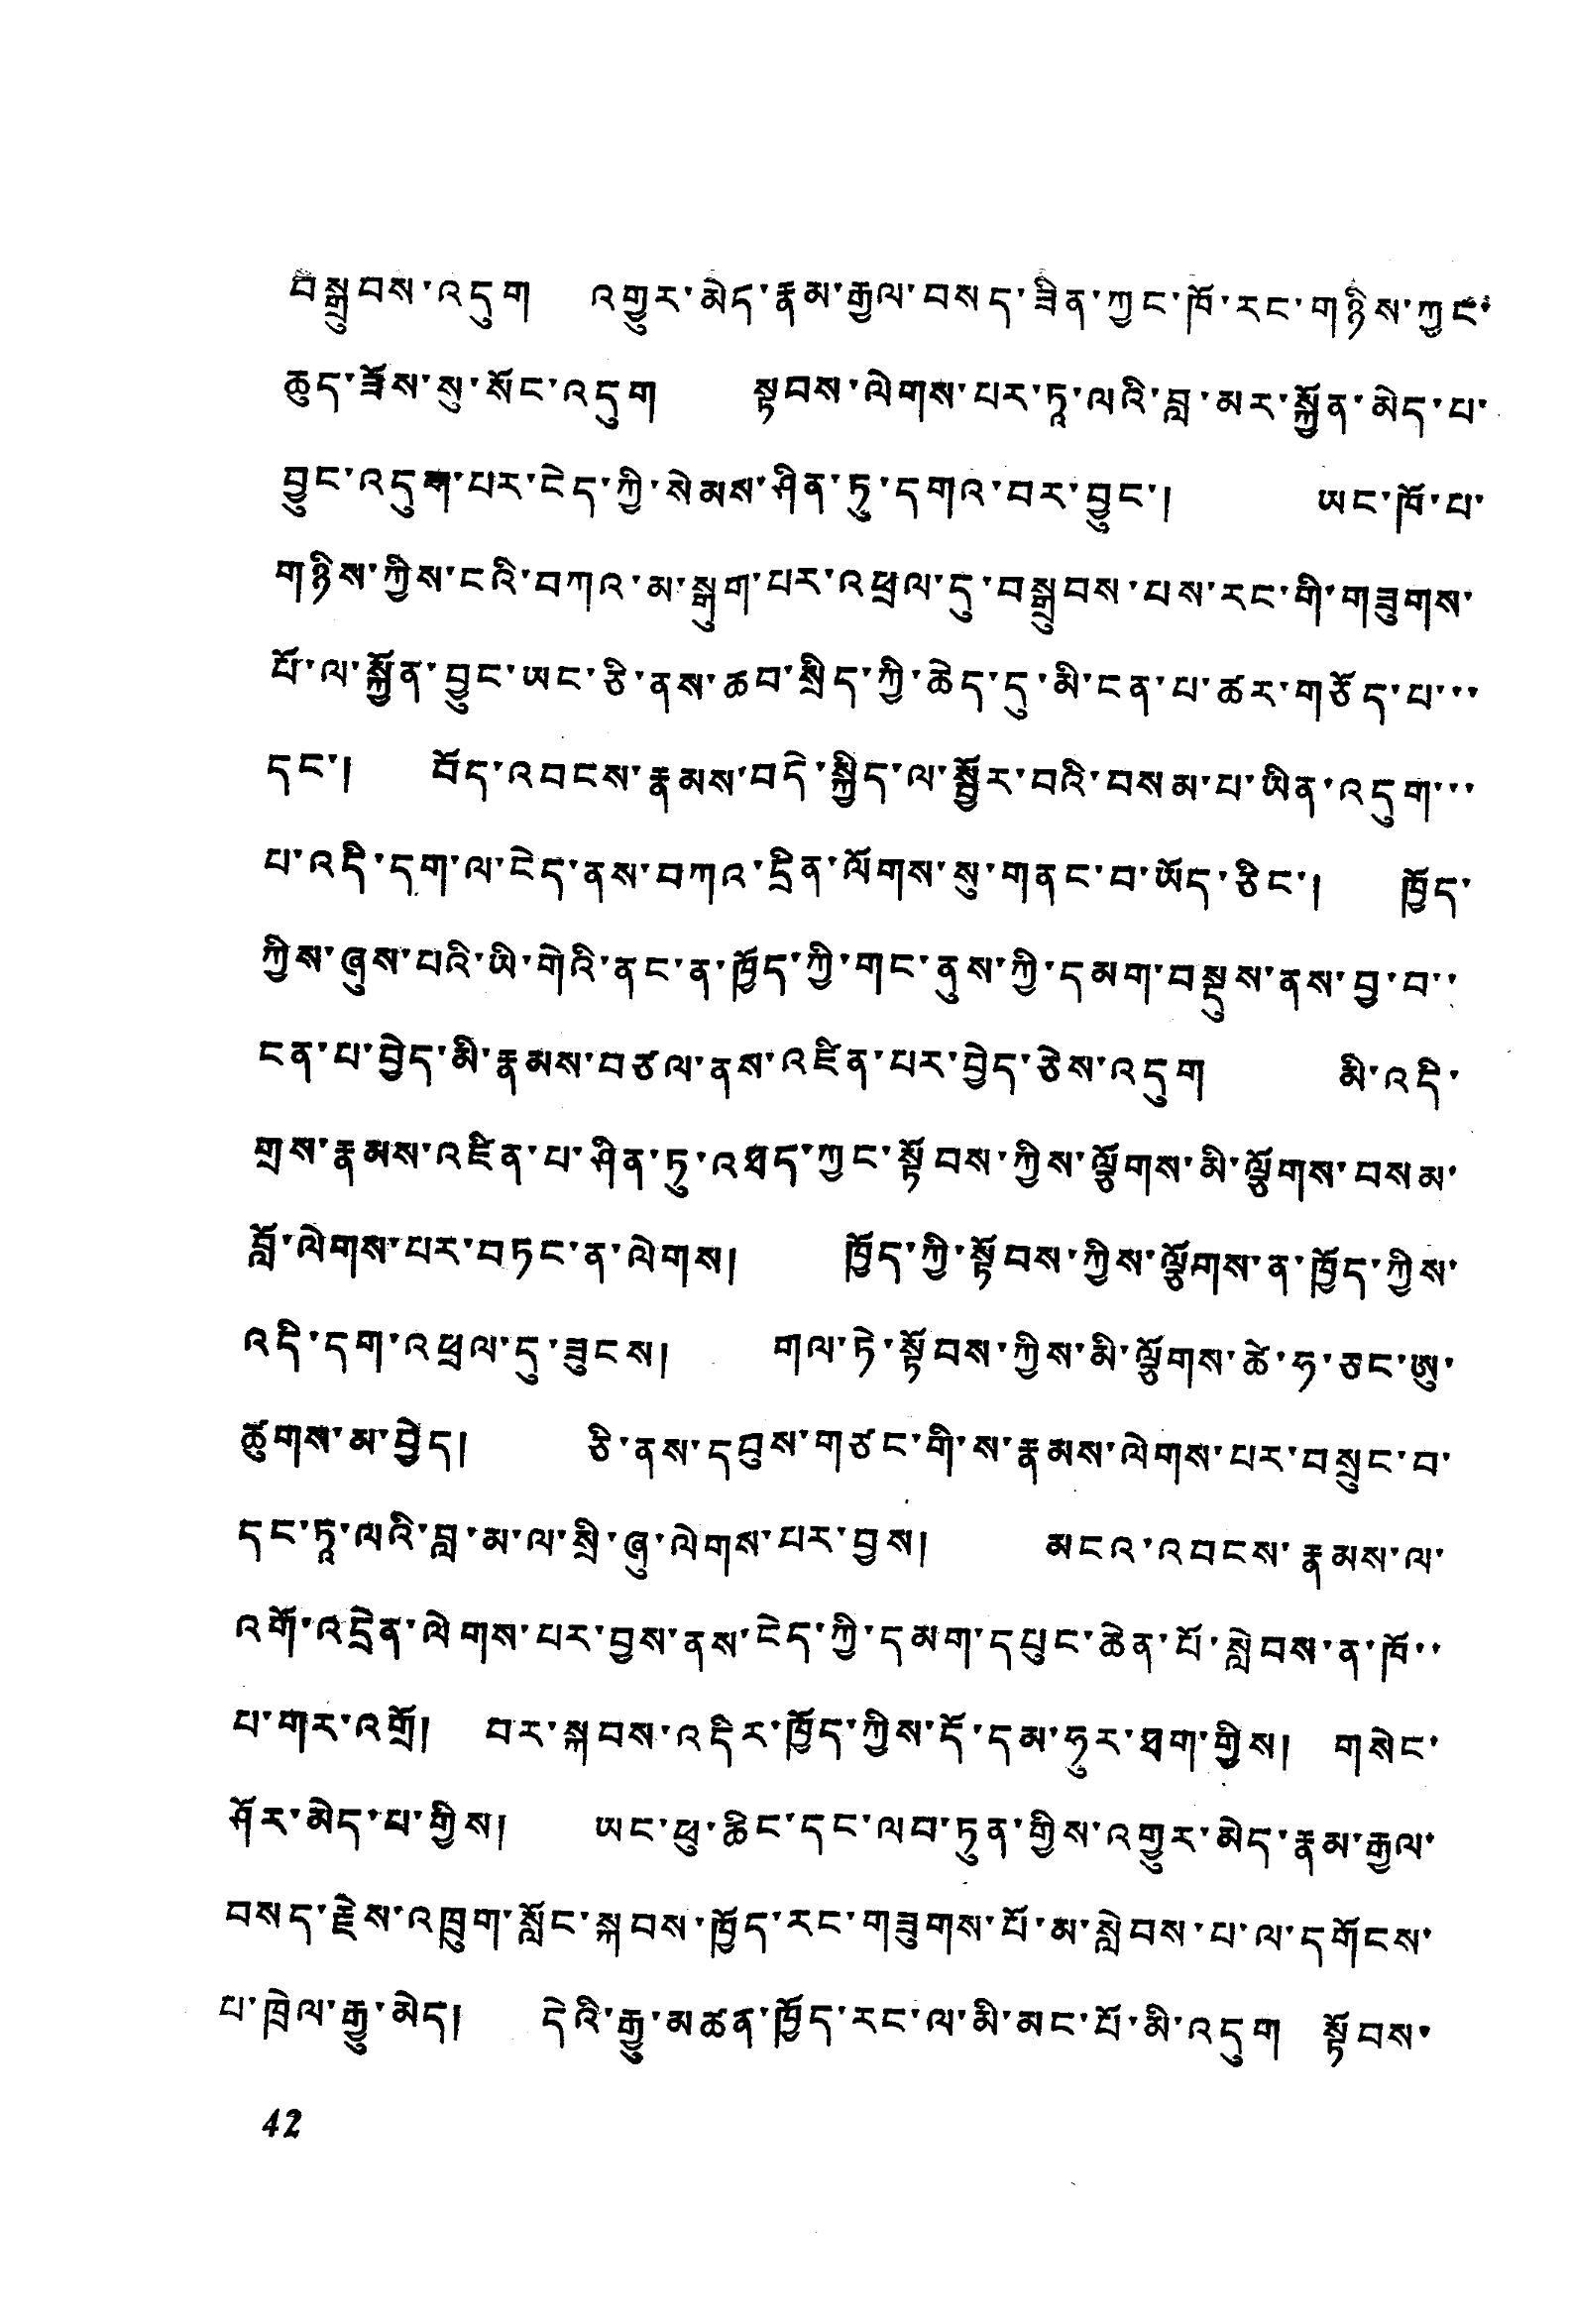བསྒྲུབས་འདུག འགྱུར་མེད་རྣམ་རྒྱལ་བསད་ཟིན་ཀྱང་ཁོ་རང་གཉིས་ཀྱང་
ཆུད་ཟོས་སུ་སོང་འདུག སྟབས་ལེགས་པར་ཏའ་ལའི་བླ་མར་སྐྱོན་མེད་པ་
བྱུང་འདུག་པར་ངེད་ཀྱི་སེམས་ཤིན་ཏུ་དགའ་བར་བྱུང་། ཡང་ཁོ་པ་
གཉིས་ཀྱིས་ངའི་བཀའ་མ་སྒུག་པར་འཕྲལ་དུ་བསྒྲུབས་པས་རང་གི་གཟུགས་
པོ་ལ་སྐྱོན་བྱུང་ཡང་ཅི་ནས་ཆབ་སྲིད་ཀྱི་ཆེད་དུ་མི་ངན་པ་ཚར་གཅོད་པ་་་
དང་། བོད་འབངས་རྣམས་བདེ་སྐྱིད་ལ་སྦྱོར་བའི་བསམ་པ་ཡིན་འདུག་་་
པ་འདི་དག་ལ་ངེད་ནས་བཀའ་དྲིན་ལོགས་སུ་གནང་བ་ཡོད་ཅིང་། ཁྱོད་
ཀྱིས་ཞུས་པའི་ཡི་གེའི་ནང་ན་ཁྱོད་ཀྱི་གང་ནུས་ཀྱི་དམག་བསྡུས་ནས་བྱ་བ་་
ངན་པ་བྱེད་མི་རྣམས་བཙལ་ནས་འཛིན་པར་བྱེད་ཅེས་འདུག མི་འདི་
གྲས་རྣམས་འཛིན་པ་ཤིན་ཏུ་འཐད་ཀྱང་སྟོབས་ཀྱིས་ལྕོགས་མི་ལྕོགས་བསམ་
བློ་ལེགས་པར་བཏང་ན་ལེགས། ཁྱོད་ཀྱི་སྟོབས་ཀྱིས་ལྕོགས་ན་ཁྱོད་ཀྱིས་
འདི་དག་འཕྲལ་དུ་ཟུངས། གལ་ཏེ་སྟོབས་ཀྱིས་མི་ལྕོགས་ཚེ་ཧ་ཅང་ཨུ་
ཚུགས་མ་བྱེད། ཅི་ནས་དབུས་གཙང་གི་ས་རྣམས་ལེགས་པར་བསྲུང་བ་
དང་ཏའ་ལའི་བླ་མ་ལ་སྲི་ཞུ་ལེགས་པར་བྱས། མངའ་འབངས་རྣམས་ལ་
འགོ་འདྲེན་ལེགས་པར་བྱས་ནས་ངེད་ཀྱི་དམག་དཔུང་ཆེན་པོ་སླེབས་ན་ཁོ་་
པར་གར་འགྲོ་།་བར་སྐབས་འདིར་ཁྱོད་ཀྱིས་དོ་དམ་ཧུར་ཐག་གྱིས། གསེང་
ཤོར་མེད་པ་གྱིས། ཡང་ཕུ་ཆིང་དང་ལབ་ཏུན་གྱིས་འགྱུར་མེད་རྣམ་རྒྱལ་
བསད་རྗེས་འཁྲུག་སློང་སྐབས་ཁྱོད་རང་གཟུགས་པོ་མ་སླེབས་པ་ལ་དགོངས་
པ་ཁྲེལ་རྒྱུ་མེད། དེའི་རྒྱུ་མཚན་ཁྱོད་རང་ལ་མི་མང་པོ་མི་འདུག སྟོབས་
42
